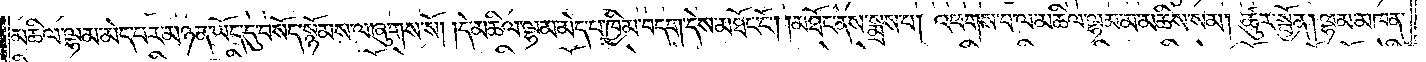མཆིལ་ལྷམ་མེད་པར་མཉན་ཡོད་དུ་བསོད་སྙོམས་ལ་ཞུགས་སོ། །དེ་མཆིལ་ལྷམ་མེད་པ་ཁྱིམ་བདག་དེས་མཐོང་ངོ༌། །མཐོང་ནས་སྨྲས་པ། འཕགས་པ་ལ་མཆིལ་ལྷམ་མ་མཆིས་སམ། ཚུར་སྤྱོན། ལྷམ་མཁན་
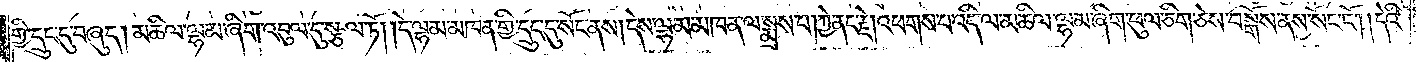གྱི་དྲུང་དུ་བཞུད། མཆིལ་ལྷམ་ཞིག་འབུལ་དུ་སྩལ་ཏོ། །དེ་ལྷམ་མཁན་གྱི་དྲུང་དུ་སོང་ནས། དེས་ལྷམ་མཁན་ལ་སྨྲས་པ། ཀྱེ་ནང་རྗེ། འཕགས་པ་འདི་ལ་མཆིལ་ལྷམ་ཞིག་ཕུལ་ཅིག་ཅེས་བསྒོས་ནས་སོང་ངོ༌། །དེའི་
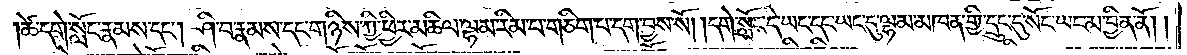ཚེ་དགེ་སློང་རྣམས་དང༌། ཤི་བ་རྣམས་དང་གཉིས་ཀྱི་ཕྱིར་མཆིལ་ལྷམ་རིམ་པ་གཅིག་པ་དག་བྱས་སོ། །དགེ་སློང་དེ་ཡང་དང་ཡང་དུ་ལྷམ་མཁན་གྱི་དྲུང་དུ་སོང་ཡང་མ་བྱིན་ནོ། །
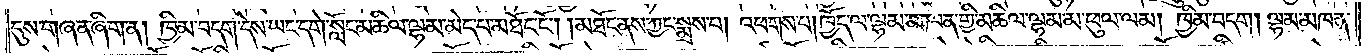དུས་གཞན་ཞིག་ན། ཁྱིམ་བདག་དེས་ཡང་དགེ་སློང་མཆིལ་ལྷམ་མེད་པ་མཐོང་ངོ༌། །མཐོང་ནས་ཀྱང་སྨྲས་པ། འཕགས་པ། ཁྱོད་ལ་ལྷམ་མཁན་གྱི་མཆིལ་ལྷམ་མ་ཕུལ་ལམ། ཁྱིམ་བདག། ལྷམ་མཁན་
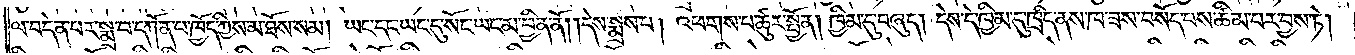ལ་བདེན་པར་སྨྲ་བ་དཀོན་པ་ཁྱོད་ཀྱིས་མ་ཐོས་སམ། ཡང་དང་ཡང་དུ་སོང་ཡང་མ་བྱིན་ནོ། །དེས་སྨྲས་པ། འཕགས་པ་ཚུར་སྤྱོན། ཁྱིམ་དུ་བཞུད། དེས་དེ་ཁྱིམ་དུ་ཁྲིད་ནས་ཁ་ཟས་བསོད་པས་ཚིམ་པར་བྱས་ཏེ།
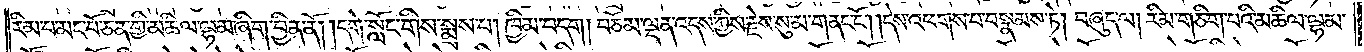རིམ་པ་མང་པོ་ཅན་གྱི་མཆིལ་ལྷམ་ཞིག་བྱིན་ནོ། །དགེ་སློང་གིས་སྨྲས་པ། ཁྱིམ་བདག། བཅོམ་ལྡན་འདས་ཀྱིས་རྗེས་སུ་མ་གནང་ངོ༌། །དེས་འཕགས་པ་བསྣམས་ཏེ། བཞུད་ལ། རིམ་གཅིག་པའི་མཆིལ་ལྷམ་
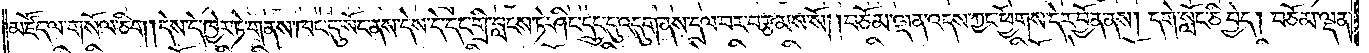མཛོད་ལ་གསོལ་ཅིག །དེས་དེ་ཁྱེར་ཏེ་གནས་ཁང་དུ་སོང་ནས་དེས་དེ་དང་གྲི་བླངས་ཏེ་ཤིང་དྲུང་དུ་འདུག་ནས་དྲལ་བར་བརྩམས་སོ། །བཅོམ་ལྡན་འདས་ཀྱང་ཕྱོགས་དེར་བྱོན་ནས། དགེ་སློང་ཅི་བྱེད། བཅོམ་ལྡན་
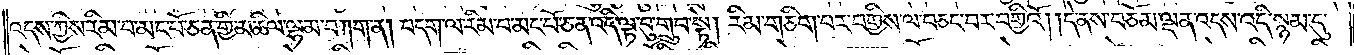འདས་ཀྱིས་རིམ་པ་མང་པོ་ཅན་གྱི་མཆིལ་ལྷམ་བཀག་ན། བདག་ལ་རིམ་པ་མང་པོ་ཅན་འདི་ལྟ་བུ་གྲུབ་སྟེ། རིམ་གཅིག་པར་བགྱིས་ལ་བཅང་བར་བགྱིའོ། །དེ་ནས་བཅོམ་ལྡན་འདས་འདི་སྙམ་དུ་
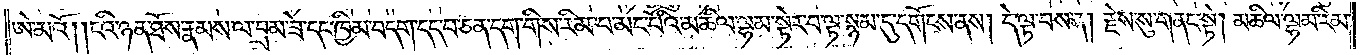ཨེ་མའོ། །ངའི་ཉན་ཐོས་རྣམས་ལ་བྲམ་ཟེ་དང་ཁྱིམ་བདག་དད་པ་ཅན་དག་གིས་རིམ་པ་མང་པོའི་མཆིལ་ལྷམ་སྟེར་བ་ལྟ་སྙམ་དུ་དགོངས་ནས། དེ་ལྟ་བས་ན། རྗེས་སུ་གནང་སྟེ། མཆིལ་ལྷམ་རིམ་
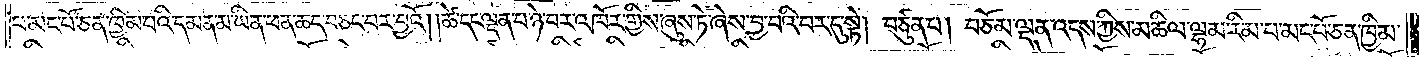པ་མང་པོ་ཅན་ཁྱིམ་པའི་དམན་མ་ཡིན་ཕན་ཆད་པ་བཅང་བར་བྱའོ། །ཚེ་དང་ལྡན་པ་ཉེ་བར་འཁོར་གྱིས་ཞུས་ཏེ་ཞེས་བྱ་བའི་བར་དུ་སྟེ། བཙུན་པ། བཅོམ་ལྡན་འདས་ཀྱིས་མཆིལ་ལྷམ་རིམ་པ་མང་པོ་ཅན་ཁྱིམ་
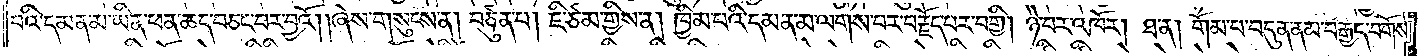པའི་དམན་མ་ཡིན་ཕན་ཆད་བཅང་བར་བྱའོ། །ཞེས་གསུངས་ན། བཙུན་པ། ཇི་ཙམ་གྱིས་ན། ཁྱིམ་པའི་དམན་མ་ལགས་པར་བརྗོད་པར་བགྱི། ཉེ་བར་འཁོར། ཐ་ན། གོམ་པ་བདུན་ནམ་བརྒྱད་བགོས་
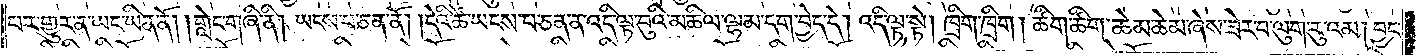པར་གྱུར་ན་ཡང་ཡིན་ནོ། །གླེང་གཞི་ནི། ཡངས་པ་ཅན་ནོ། །དེའི་ཚེ་ཡངས་པ་ཅན་ན་འདི་ལྟ་བུའི་མཆིལ་ལྷམ་དག་བྱེད་དེ། འདི་ལྟ་སྟེ། ཁྲིག་ཁྲིག། ཚིག་ཚིག་ཆེམ་ཆེམ་ཞེས་ཟེར་བ་ལུག་རུ་འམ། བྱང་
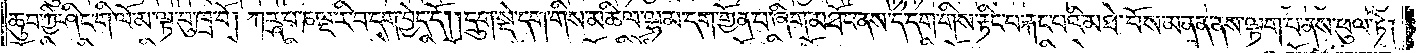ཆུབ་ཀྱི་ཤིང་གི་ལོ་མ་ལྟ་བུ་ཁྲ་བོ། ཀཪྴ་པ་ཎ་ལྔ་རི་བ་དག་བྱེད་དོ། །དྲུག་སྡེ་དག་གིས་མཆིལ་ལྷམ་དག་གྱོན་པ་ཞིག་མཐོང་ནས་དེ་དག་གིས་རྟིང་པ་རྐང་པའི་མཐེ་བོས་མནན་ནས་ལྟག་པ་ནས་ཕུལ་ཏེ།
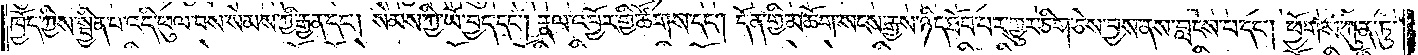ཁྱོད་ཀྱིས་སྦྱིན་པ་འདི་ཕུལ་བས་སེམས་ཀྱི་རྒྱན་དང༌། སེམས་ཀྱི་ཡོ་བྱད་དང༌། རྣལ་འབྱོར་གྱི་ཚོགས་དང༌། དོན་གྱི་མཆོག་སངས་རྒྱས་ཉིད་ཐོབ་པར་གྱུར་ཅིག་ཅེས་བྱས་ནས་བླངས་པ་དང༌། ཕྱོགས་ཀུན་ཏུ་
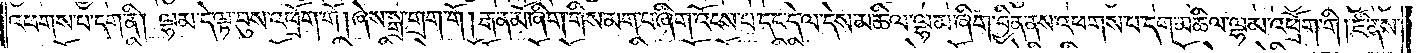འཕགས་པ་དག་ནི། ལྷམ་དེ་ལྟ་བུས་འཕྲོག་གོ། ཞེས་སྒྲ་གྲག་གོ། །རྒན་མོ་ཞིག་གིས་མག་པ་ཞིག་འོངས་པ་དང་དེ་ལ་དེས་མཆིལ་ལྷམ་ཞིག་བྱིན་ནས་འཕགས་པ་དག་མཆིལ་ལྷམ་འཕྲོག་གི །ཇི་ནས་
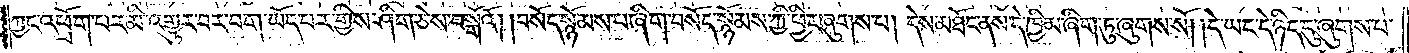ཀྱང་འཕྲོག་པར་མི་འགྱུར་བར་བག་ཡོད་པར་གྱིས་ཤིག་ཅེས་བསྒོའོ། །བསོད་སྙོམས་པ་ཞིག་བསོད་སྙོམས་ཀྱི་ཕྱིར་ཞུགས་པ། དེས་མཐོང་ནས་དེ་ཁྱིམ་ཞིག་ཏུ་ཞུགས་སོ། །དེ་ཡང་དེ་ཉིད་དུ་ཞུགས་པ་
